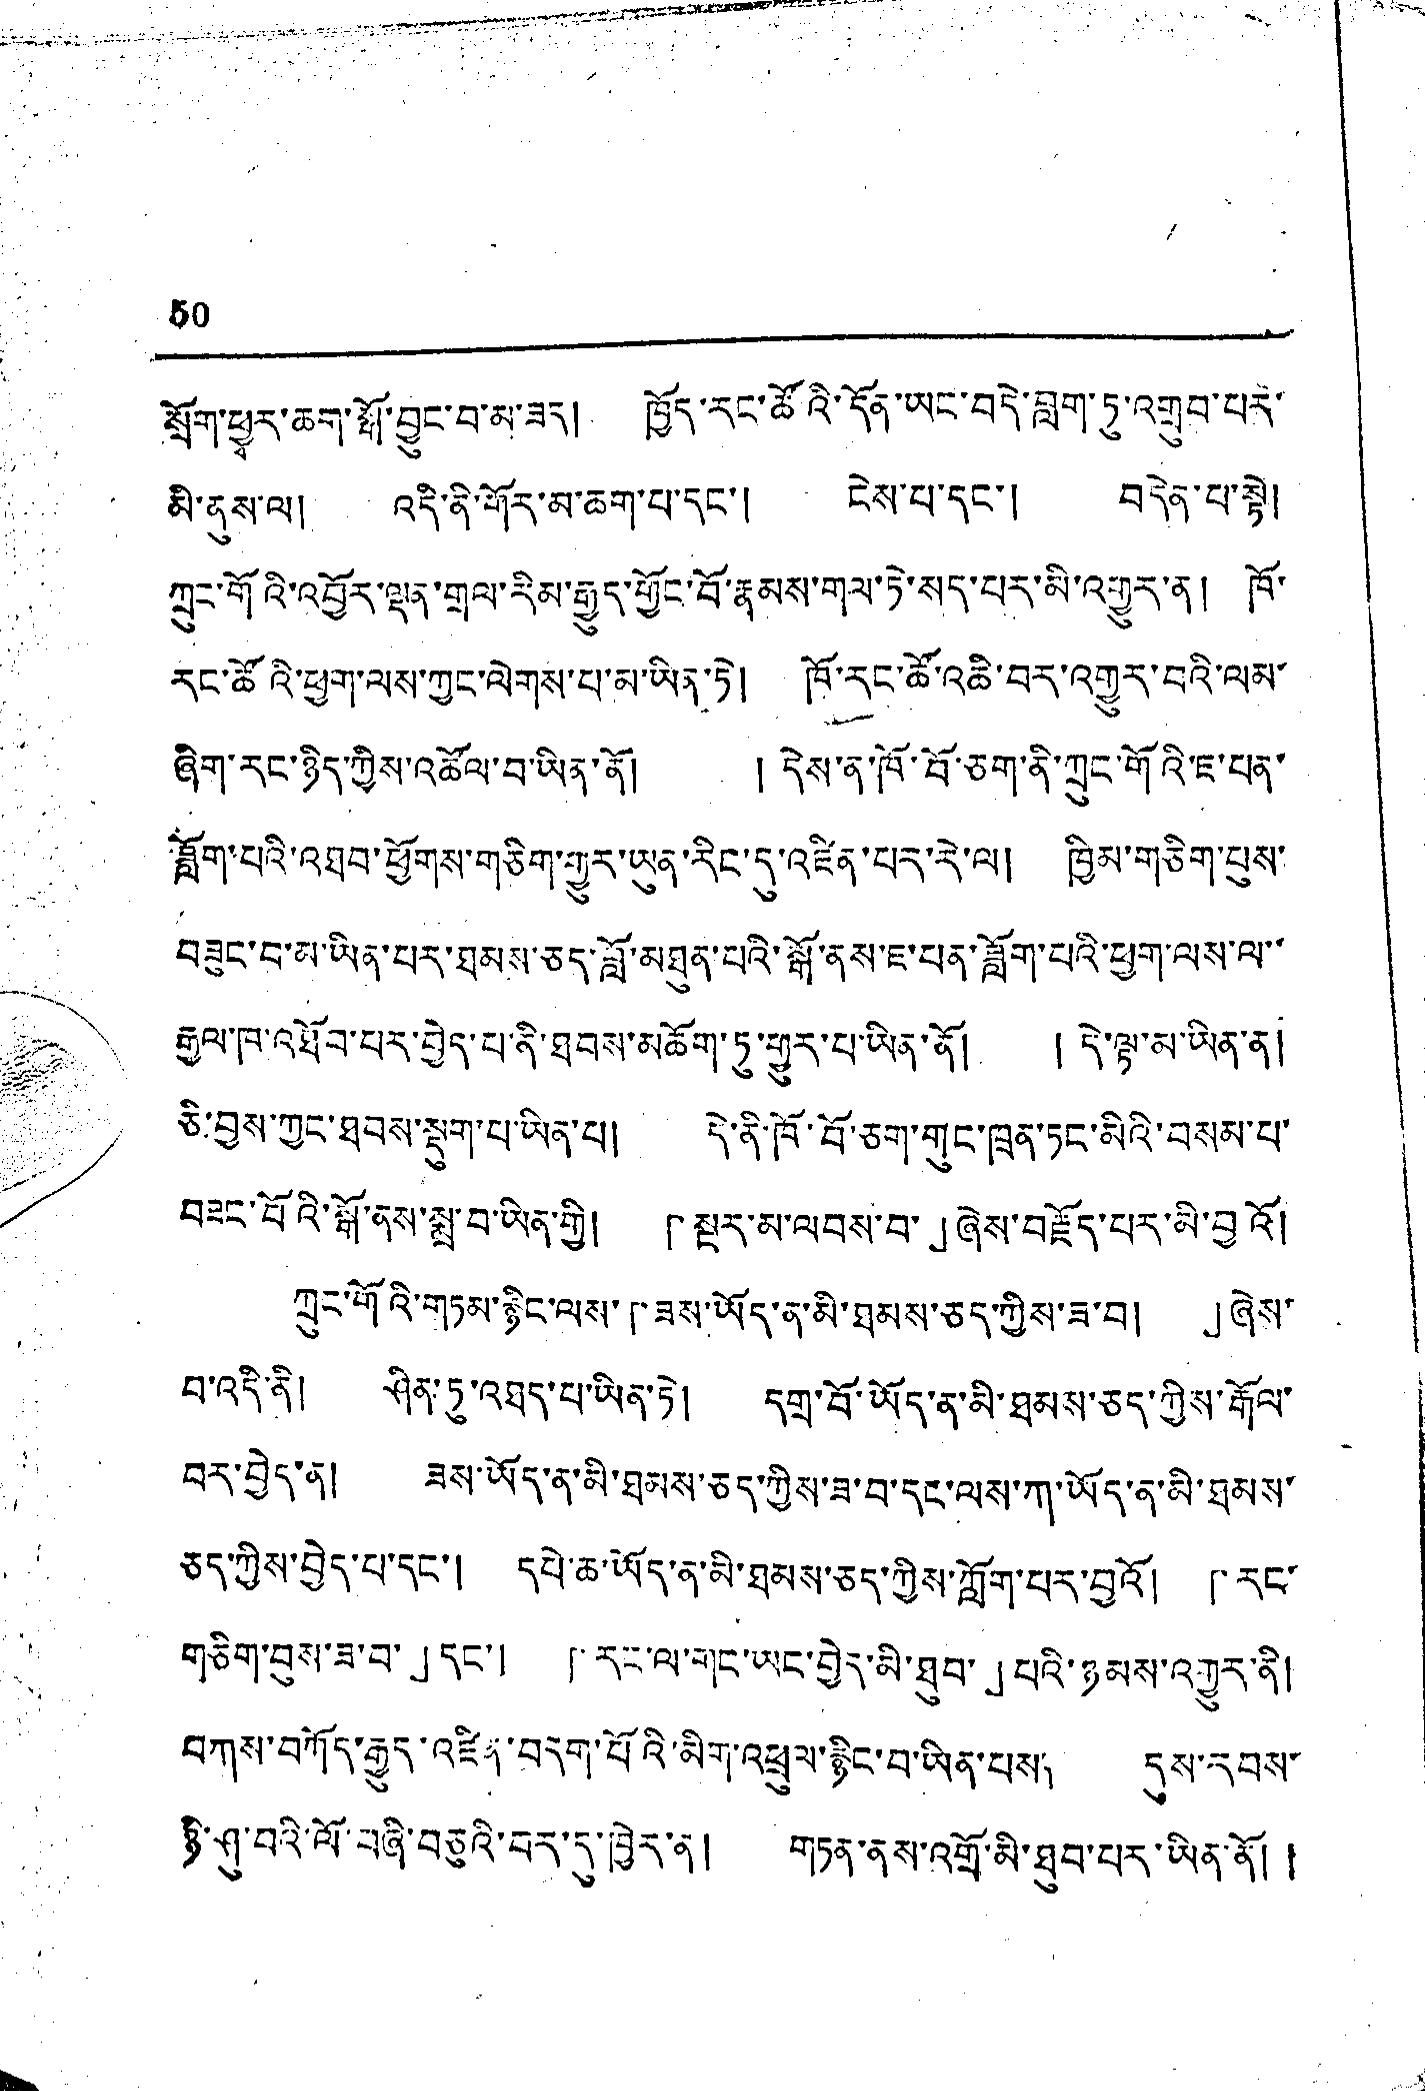50
སྲོག་ཕྱྭར་ཆག་སྒྲོ་བྱུང་བ་མ་ཟད། ཁྱོད་རང་ཚོའི་དོན་ཡང་བདེ་བླག་ཏུ་འགྲུབ་པར་
མི་ནུས་ལ། འདི་ནི་གོར་མ་ཆག་པ་དང་། ངེས་པ་དང་། བདེན་པ་སྟེ།
ཀྲུང་གོའི་འབྱོར་ལྡན་གྲལ་རིམ་རྒྱུད་གྱོང་བོ་རྣམས་གལ་ཏེ་སད་པར་མི་འགྱུར་ན། ཁོ་
རང་ཚོའི་ཕྱག་ལས་ཀྱང་ལེགས་པ་མ་ཡིན་ཏེ། ཁོ་རང་ཚོ་འཆི་བར་འགྱུར་བའི་ལམ་
ཞིག་རང་ཉིད་ཀྱིས་འཚོལ་བ་ཡིན་ནོ། །དེས་ན་ཁོ་བོ་ཅག་ནི་ཀྲུང་གོའི་ཇ་པན་
ཟློག་པའི་འཐབ་ཕྱོགས་གཅིག་གྱུར་ཡུན་རིང་དུ་འཛིན་པར་རེ་ལ། ཁྱིམ་གཅིག་པུས་
བཟུང་བ་མ་ཡིན་པར་ཐམས་ཅད་བློ་མཐུན་པའི་སྒོ་ནས་ཇ་པན་ཟློག་པའི་ཕྱུག་ལས་ལ་་
རྒྱལ་ཁ་འཐོབ་པར་བྱེད་པ་ནི་ཐབས་མཆོག་ཏུ་གྱུར་པ་ཡིན་ནོ། །དེ་ལྟ་མ་ཡིན་ན།
ཅི་བྱས་ཀྱང་ཐབས་སྡུག་པ་ཡིན་པ། དེ་ནི་ཁོ་བོ་ཅག་གུང་ཁྲན་ཏང་མིའི་བསམ་པ་
བཟང་པོའི་སྒོ་ནས་སྨྲ་བ་ཡིན་གྱི། 「སྔར་མ་ལབས་བ་」ཞེས་བརྗོད་པར་མི་བྱའོ།
ཀྲུང་གོའི་གཏམ་རྙིང་ལས་「ཟས་ཡོད་ན་མི་ཐམས་ཅད་ཀྱིས་ཟ་བ། 」ཞེས་
བ་འདི་ནི། ཤིན་ཏུ་འཐད་པ་ཡིན་ཏེ། དགྲ་བོ་ཡོད་ན་མི་ཐམས་ཅད་ཀྱིས་རྒོལ་
བར་བྱེད་ན། ཟས་ཡོད་ན་མི་ཐམས་ཅད་ཀྱིས་ཟ་བ་དང་ལས་ཀ་ཡོད་ན་མི་ཐམས་
ཅད་ཀྱིས་བྱེད་པ་དང་། དཔེ་ཆ་ཡོད་ན་མི་ཐམས་ཅད་ཀྱིས་ཀློག་པར་བྱའོ། 「རང་
གཅིག་བུས་ཟ་བ་」དང་། 「རང་ལ་གང་ཡང་བྱེད་མི་ཐུབ་」པའི་ཉམས་འགྱུར་ནི།
བཀས་བཀོད་རྒྱུད་འཛིན་བདག་པོའི་མིག་འཕྲུལ་རྙིང་བ་ཡིན་པས། དུས་རབས་
ཉི་ཤུ་བའི་ལོ་བཞི་བཅུའི་བར་དུ་ཁྱེར་ན། གཏན་ནས་འགྲོ་མི་ཐུབ་པར་ཡིན་ནོ། །
